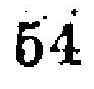54
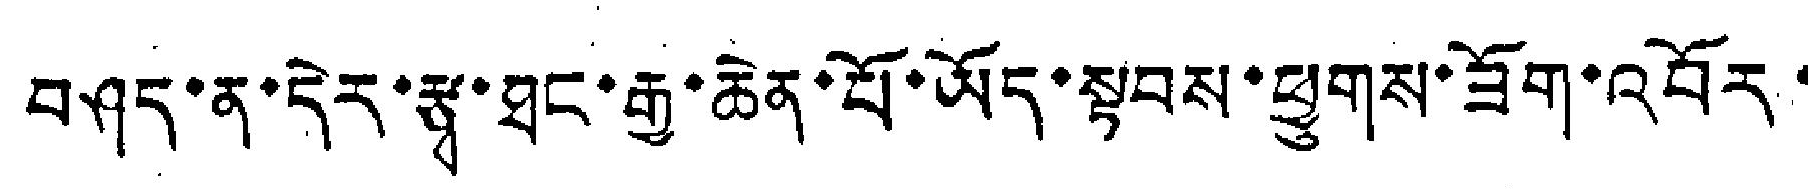བཤད་ན་དེར་རྩྭ་ཐང་རྒྱ་ཆེན་པོ་ཡོད་སྟབས་ཕྱུགས་ཟོག་འབོར་
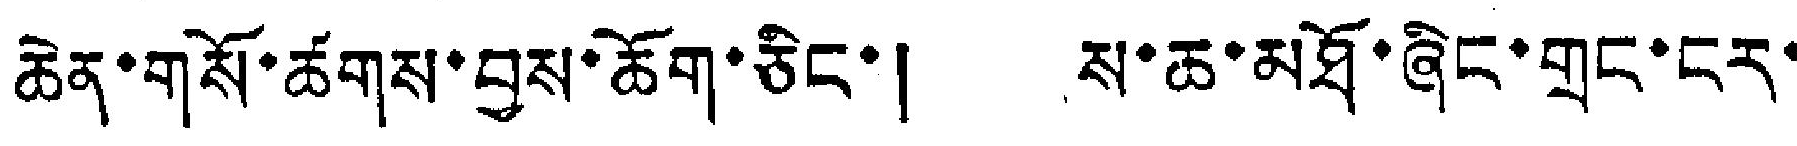ཆེན་གསོ་ཚགས་བྱས་ཆོག་ཅིང་། ས་ཆ་མཐོ་ཞིང་གྲང་ངར་
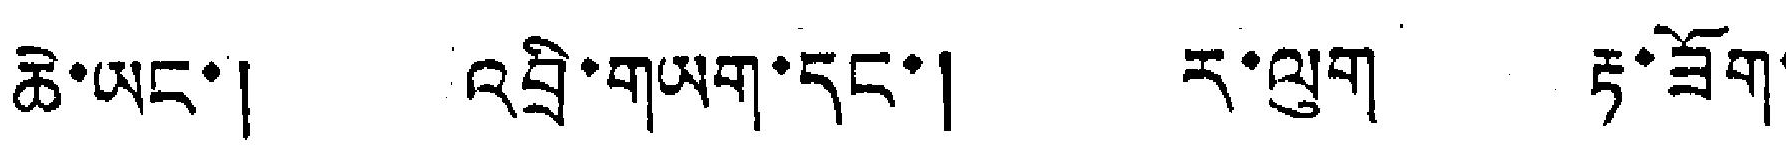ཆེ་ཡང་། འབྲི་གཡག་དང་། ར་ལུག རྟ་ཟོག་
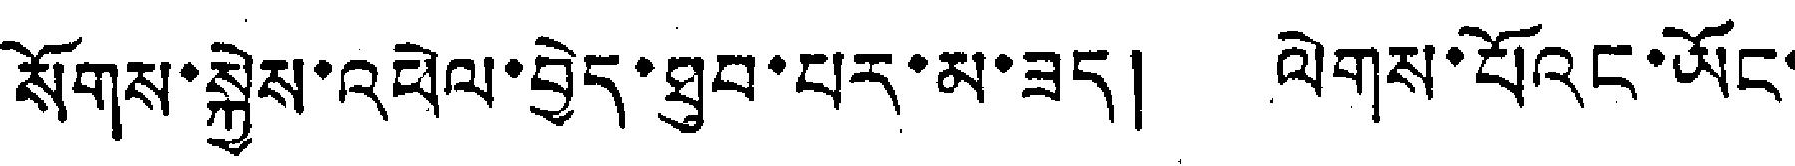སོགས་སྐྱེས་འཕེལ་བྱེད་ཐུབ་པར་མ་ཟད། ལེགས་པོའང་ཡོང་
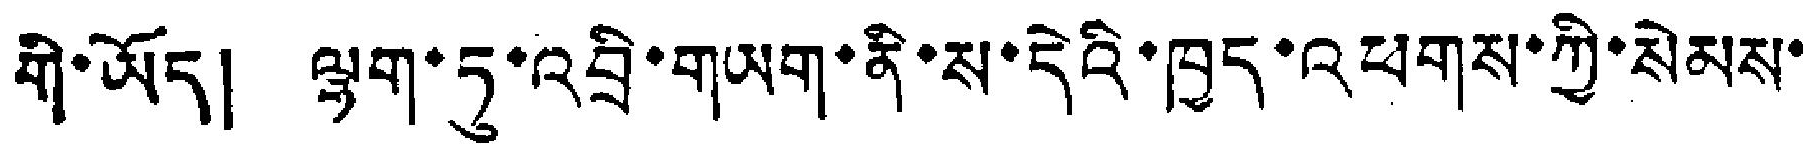གི་ཡོད། ལྷག་ཏུ་འབྲི་གཡག་ནི་ས་དེའི་ཁྱད་འཕགས་ཀྱི་སེམས་
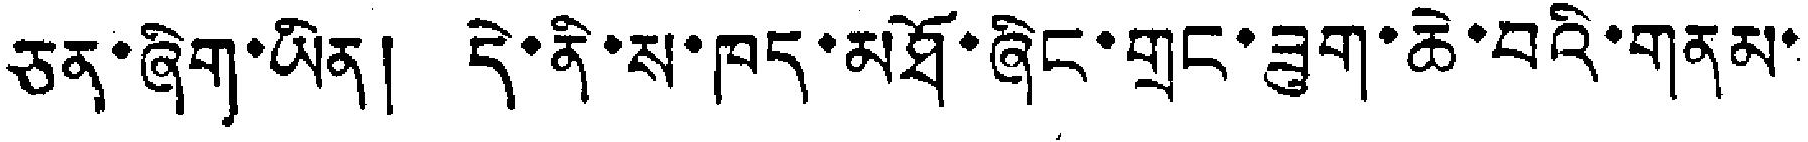ཅན་ཞིག་ཡིན། དེ་ནི་ས་ཁད་མཐོ་ཞིང་གྲང་ཟུག་ཆེ་བའི་གནམ་
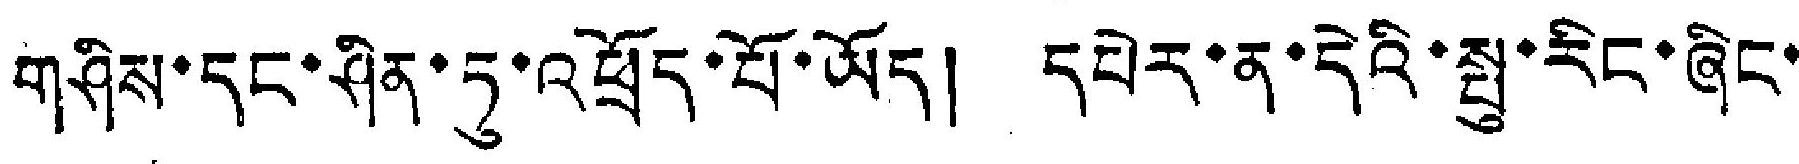གཤིས་དང་ཤིན་ཏུ་འཕྲོད་པོ་ཡོད། དཔེར་ན་དེའི་སྤུ་རིང་ཞིང་
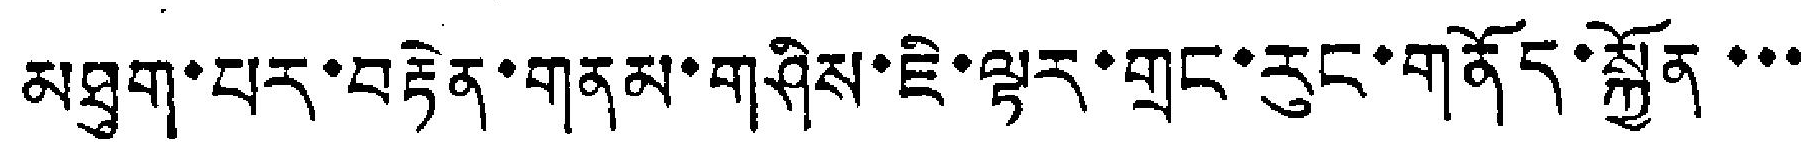མཐུག་པར་བརྟེན་གནམ་གཤིས་ཇི་ལྟར་གྲང་རུང་གནོད་སྐྱོན་་་
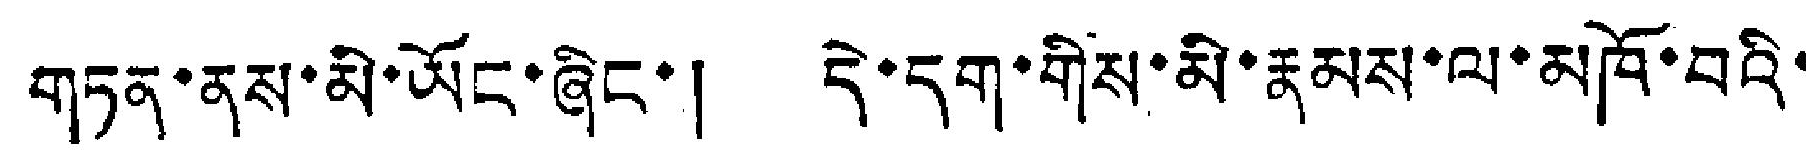གཏན་ནས་མི་ཡོང་ཞིང་། དེ་དག་གིས་མི་རྣམས་ལ་མཁོ་བའི་
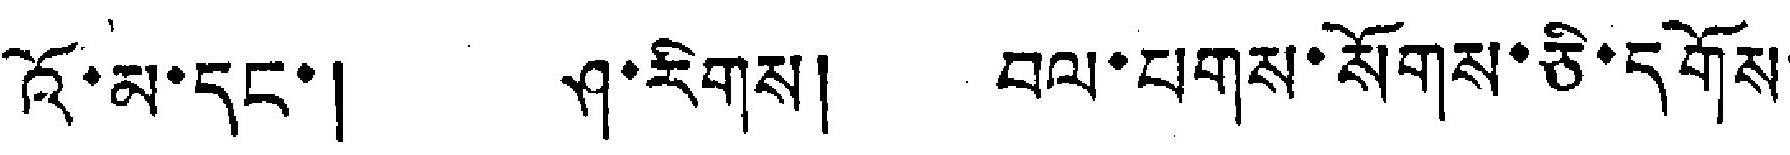འོ་མ་དང་། ཤ་རིགས། བལ་པགས་སོགས་ཅི་དགོས་
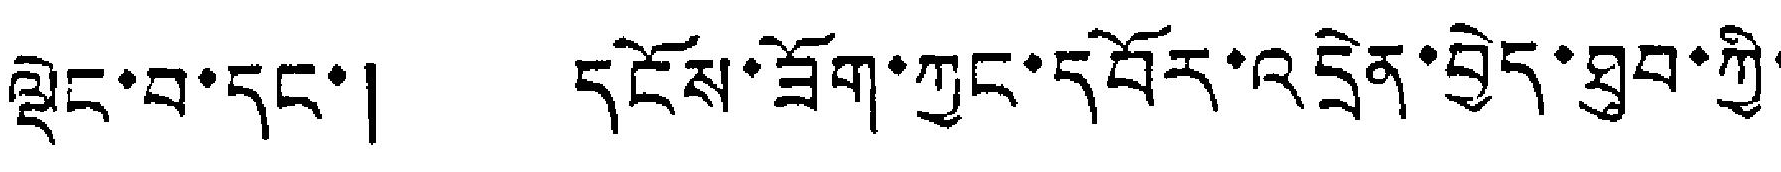ལྡེང་བ་དང་། དངོས་ཟོག་ཀྱང་དབོར་འདྲེན་བྱེད་ཐུབ་ཀྱི་
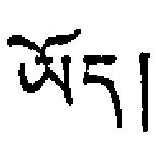ཡོད།
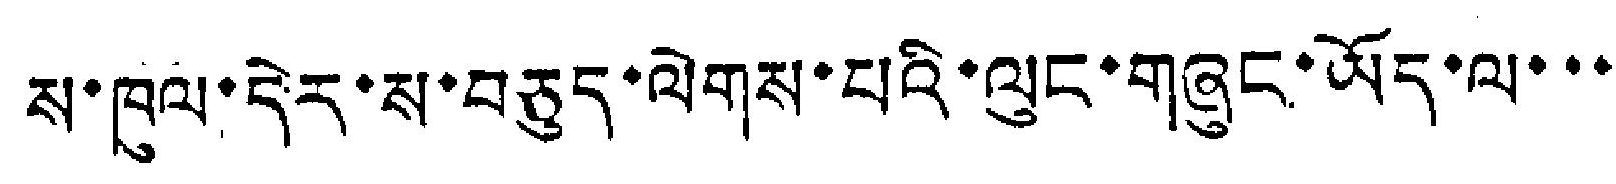ས་ཁུལ་དེར་ས་བཅུད་ལེགས་པའི་ལུང་གཞུང་ཡོད་ལ་་་
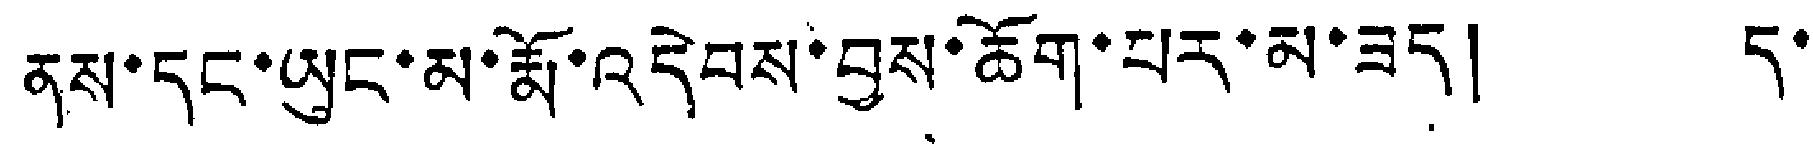ནས་དང་ཡུང་མ་རྨོ་འདེབས་བྱས་ཆོག་པར་མ་ཟད། ད་
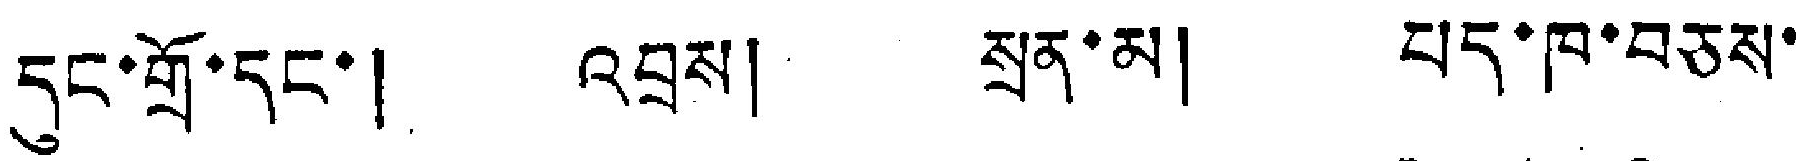དུང་གྲོ་དང་། འབྲས། སྲན་མ། པད་ཁ་བཅས་
